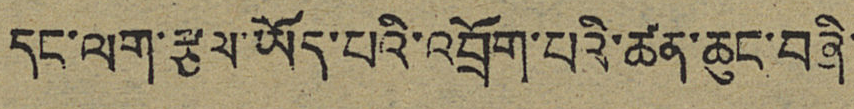དང་ལག་རྩལ་ཡོད་པའི་འབྲོག་པའི་ཚན་ཆུང་བཞི་
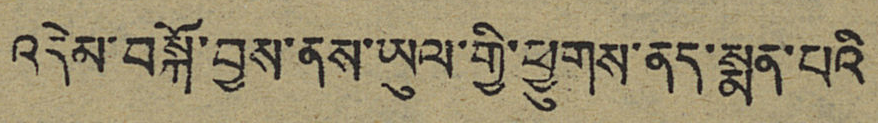འདེམ་བསྐོ་བྱས་ནས་ཡུལ་གྱི་ཕྱུགས་ནད་སྨན་པའི
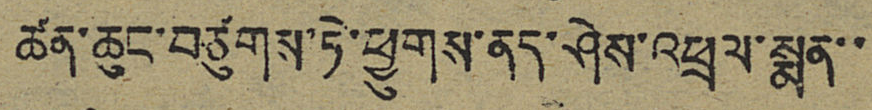ཚན་ཆུང་བཙུགས་ཏེ་ཕྱུགས་ནད་ཤེས་འཕྲལ་སྨན་་
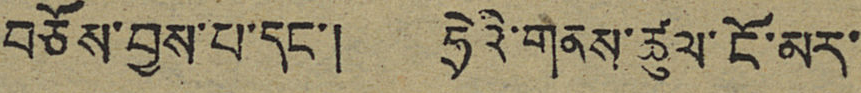བཅོས་བྱས་པ་དང་། ཧྲེའི་གནས་ཚུལ་ངོ་མར་
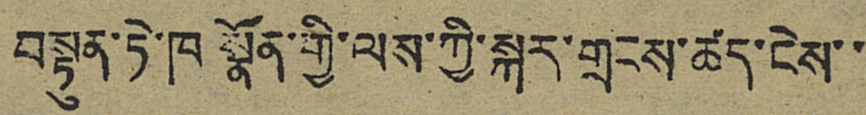བསྟུན་ཏེ་ཁ སྣོན་གྱི་ལས་ཀྱི་སྐར་གྲངས་ཚད་ངེས་་
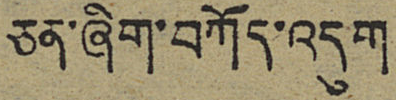ཅན་ཞིག་བཀོད་འདུག
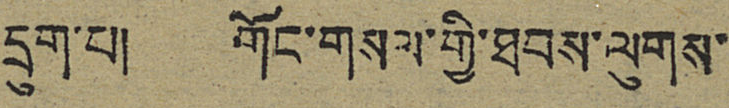དྲུག་པ། གོང་གསལ་གྱི་ཐབས་ལུགས་
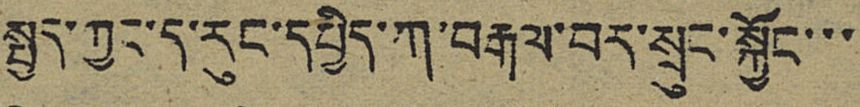སྤྱད་ཀྱང་ད་རུང་དཔྱིད་ཀ་བརྒལ་བར་སྲུང་སྐྱོང་་་
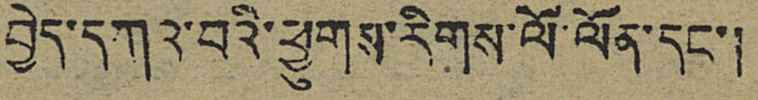བྱེད་དཀའ་བའི་ཕྱུགས་རིགས་ལོ་ལོན་དང་།
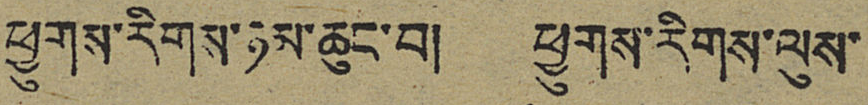ཕྱུགས་རིགས་ཉམ་ཆུང་བ། ཕྱུགས་རིགས་ལུས་
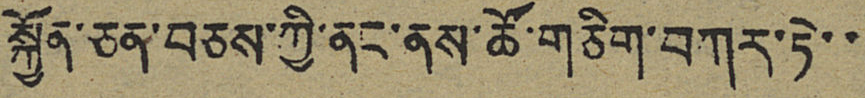སྐྱོན་ཅན་བཅས་ཀྱི་ནང་ནས་ཚོ་གཅིག་བཀར་ཏེ་་
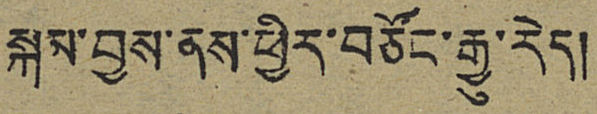སྐམ་བྱས་ནས་ཕྱིར་བཙོང་རྒྱུ་རེད།
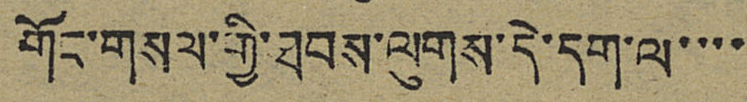གོང་གསལ་གྱི་ཐབས་ལུགས་དེ་དག་ལ་་་་
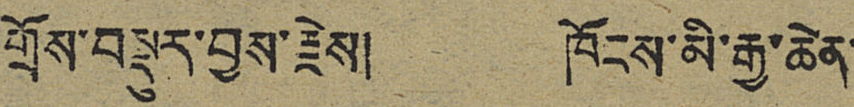གྲོས་བསྡུར་བྱས་རྗེས། ཁོངས་མི་རྒྱ་ཆེན་
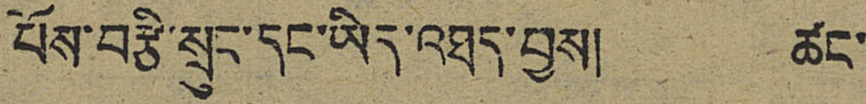པོས་བརྩི་སྲུང་དང་ཡིད་འཐད་བྱས། ཚང་
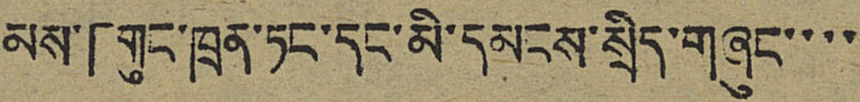མས་「གུང་ཁྲན་ཏང་དང་མི་དམངས་སྲིད་གཞུང་་་་
